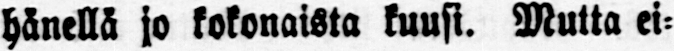hänellä jo kokonaista kuusi. Mutta ei-
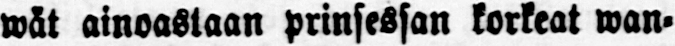wät ainoastaan prinsessan korkeat wan-
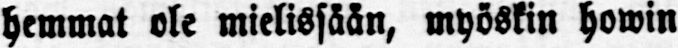hemmat ole mielissään, myöskin howin
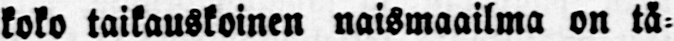koko taikauskoinen naismaailma on tä-
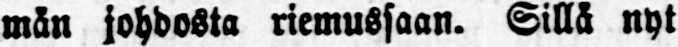män johdosta riemussaan. Sillä nyt
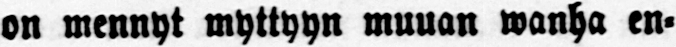on mennyt myttyyn muuan wanha en-
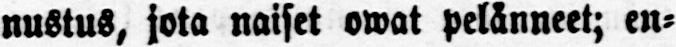nustus, jota naiset owat pelänneet; en-
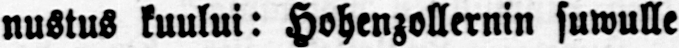nustus kuului: Hohenzollernin suwulle
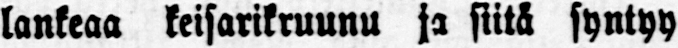lankeaa keisarikruunu ja siitä syntyy
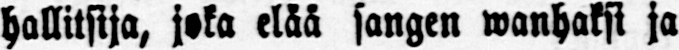hallitsija, joka elää sangen wanhaksi ja
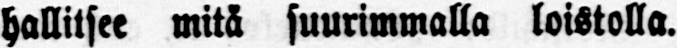hallitsee mitä suurimmalla loistolla.
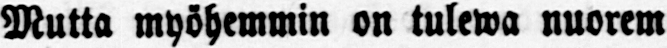Mutta myöhemmin on tulewa nuorem-
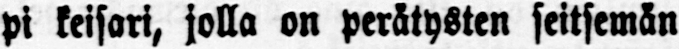pi keisari, jolla on perätysten seitsemän
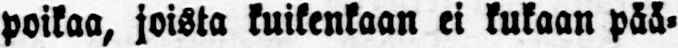poikaa, joista kuikenkaan ei kukaan pää-
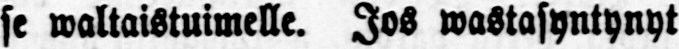se waltaistuimelle. Jos wastasyntynyt
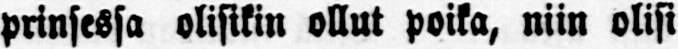prinsessa olisikin ollut poika, niin olisi
